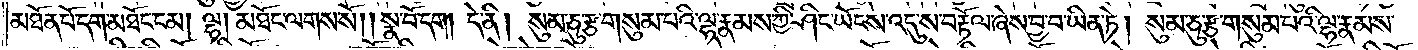མཐོན་པོ་དག་མཐོང་ངམ། ལྷ། མཐོང་ལགས་སོ། །སྣ་བོ་དག །དེ་ནི། སུམ་ཅུ་རྩ་གསུམ་པའི་ལྷ་རྣམས་ཀྱི་ཤིང་ཡོངས་སུ་འདུ་ས་བརྟོལ་ཞེས་བྱ་བ་ཡིན་ཏེ། སུམ་ཅུ་རྩ་གསུམ་པའི་ལྷ་རྣམས་
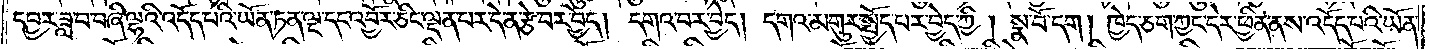དབྱར་ཟླ་བ་བཞི་ལྷའི་འདོད་པའི་ཡོན་ཏན་ལྔ་དང་འབྱོར་ཅིང་ལྡན་པར་དེ་ན་རྩེ་བར་བྱེད། དགའ་བར་བྱེད། དགའ་མགུར་སྤྱོད་པར་བྱེད་ཀྱི། སྣ་བོ་དག །ཁྱེད་ཅག་ཀྱང་དེར་ཕྱིན་ནས་འདོད་པའི་ཡོན་
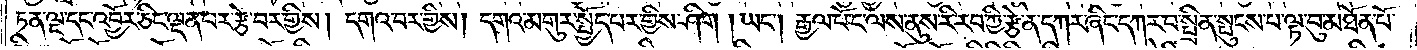ཏན་ལྔ་དང་འབྱོར་ཅིང་ལྡན་པར་རྩེ་བར་གྱིས། དགའ་བར་གྱིས། དགའ་མགུར་སྤྱོད་པར་གྱིས་ཤིག །ཡང༌། རྒྱལ་པོ་ང་ལས་ནུས་རི་རབ་ཀྱི་རྩེ་ན་དཀར་ཞིང་དཀར་བ་སྤྲིན་སྤུངས་པ་ལྟ་བུ་མཐོན་པོ་
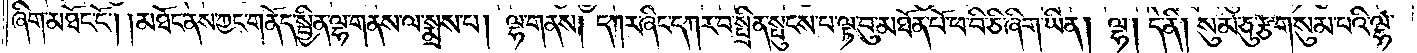ཞིག་མཐོང་ངོ༌། །མཐོང་ནས་ཀྱང་གནོད་སྦྱིན་ལྷ་གནས་ལ་སྨྲས་པ། ལྷ་གནས། དཀར་ཞིང་དཀར་བ་སྤྲིན་སྤུངས་པ་ལྟ་བུ་མཐོན་པོ་ཕ་བི་ཅི་ཞིག་ཡིན། ལྷ། དེ་ནི། སུམ་ཅུ་རྩ་གསུམ་པའི་ལྷ་
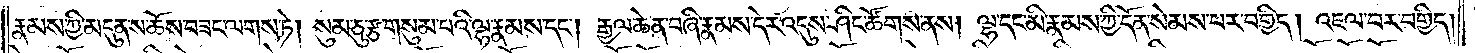རྣམས་ཀྱི་མདུན་ས་ཆོས་བཟང་ལགས་ཏེ། སུམ་ཅུ་རྩ་གསུམ་པའི་ལྷ་རྣམས་དང༌། རྒྱལ་ཆེན་བཞི་རྣམས་དེར་འདུས་ཤིང་ཚོགས་ནས། ལྷ་དང་མི་རྣམས་ཀྱི་དོན་སེམས་པར་བགྱིད། འཇལ་བར་བགྱིད།
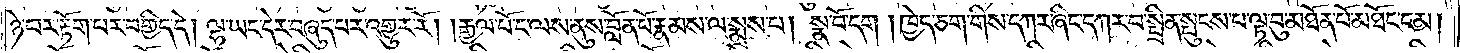ཉེ་བར་རྟོག་པར་བགྱིད་དེ། ལྷ་ཡང་དེར་བཞུད་པར་འགྱུར་རོ། །རྒྱལ་པོ་ང་ལས་ནུས་བློན་པོ་རྣམས་ལ་སྨྲས་པ། སྣ་བོ་དག །ཁྱེད་ཅག་གིས་དཀར་ཞིང་དཀར་པ་སྤྲིན་སྤུངས་པ་ལྟ་བུ་མཐོན་པོ་མཐོང་ངམ།
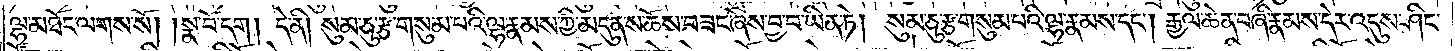ལྷ་མཐོང་ལགས་སོ། །སྣ་བོ་དག །དེ་ནི། སུམ་ཅུ་རྩ་གསུམ་པའི་ལྷ་རྣམས་ཀྱི་མདུན་ས་ཆོས་བཟང་ཞེས་བྱ་བ་ཡིན་ཏེ། སུམ་ཅུ་རྩ་གསུམ་པའི་ལྷ་རྣམས་དང༌། རྒྱལ་ཆེན་བཞི་རྣམས་དེར་འདུས་ཤིང་
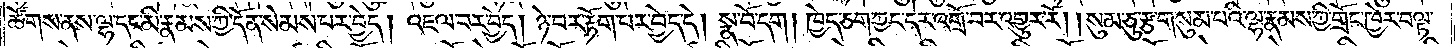ཚོགས་ནས་ལྷ་དང་མི་རྣམས་ཀྱི་དོན་སེམས་པར་བྱེད། འཇལ་བར་བྱེད། ཉེ་བར་རྟོག་པར་བྱེད་དེ། སྣ་བོ་དག །ཁྱེད་ཅག་ཀྱང་དེར་འགྲོ་བར་འགྱུར་རོ། །སུམ་ཅུ་རྩ་གསུམ་པའི་ལྷ་རྣམས་ཀྱི་གྲོང་ཁྱེར་བལྟ་
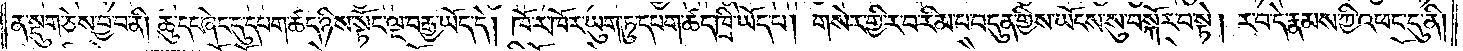ན་སྡུག་ཅེས་བྱ་བ་ནི། ཆུ་དང་ཞེང་དུ་དཔག་ཚད་ཉིས་སྟོང་ལྔ་བརྒྱ་ཡོད་དེ། ཁོ་ར་ཁོར་ཡུག་ཏུ་དཔག་ཚད་ཁྲི་ཡོད་པ། གསེར་གྱི་ར་བ་རིམ་པ་བདུན་གྱིས་ཡོངས་སུ་བསྐོར་བ་སྟེ། ར་བདེ་དེ་རྣམས་ཀྱི་འཕང་དུ་ནི།
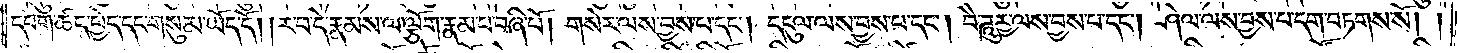དཔག་ཚད་ཕྱེད་དང་གསུམ་ཡོད་དོ། །ར་བདེ་རྣམས་ལ་ལྕོག་རྣམ་པ་བཞི་པོ། གསེར་ལས་བྱས་པ་དང༌། དངུལ་ལས་བྱས་པ་དང༌། བཻཌཱུརྱ་ལས་བྱས་པ་དང༌། ཤེལ་ལས་བྱས་པ་དག་བཏགས་སོ། །
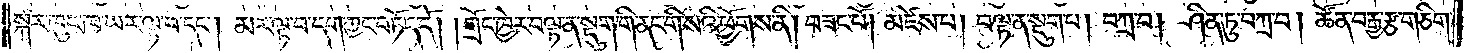སྐར་ཁུང་ཁ་ཡར་ལྟ་བ་དང༌། མར་ལྟ་བ་དག་ཀྱང་བཏོད་དོ། །གྲོང་ཁྱེར་བལྟ་ན་སྡུག་གི་ནང་གི་སའི་ཕྱོགས་ནི། བཟང་པོ། མཛེས་པ། བལྟ་ན་སྡུག་པ། བཀྲ་བ། ཤིན་ཏུ་བཀྲ་བ། ཚོན་བརྒྱ་རྩ་གཅིག་
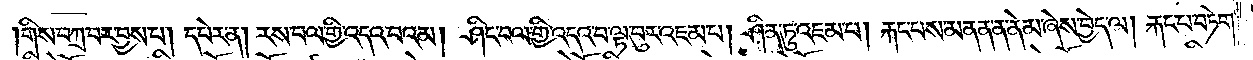གིས་བཀྲ་བར་བྱས་པ། དཔེར་ན། རས་བལ་གྱི་འདའ་བའམ། ཤིང་བལ་གྱི་འདའ་བ་ལྟ་བུར་འཇམ་པ། ཤིན་ཏུ་འཇམ་པ། རྐང་པས་མནན་ན་ནེ་མ་ཞེས་བྱེད་ལ། རྐང་པ་བཏེག་
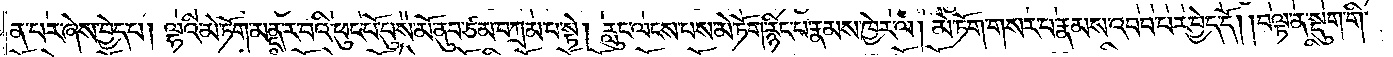ན་པར་ཞེས་བྱེད་པ། ལྷའི་མེ་ཏོག་མནྡཱ་ར་བའི་ཕུང་པོ་པུས་མོ་ནུབ་ཙམ་བཀྲམ་པ་སྟེ། རླུང་ལངས་པས་མེ་ཏོག་རྙིང་པ་རྣམས་ཁྱེར་ལ། མེ་ཏོག་གསར་པ་རྣམས་འབབ་པར་བྱེད་དོ། །བལྟ་ན་སྡུག་གི་
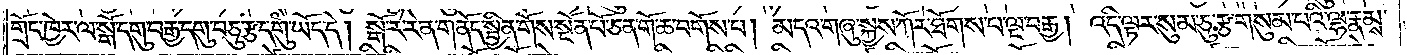གྲོང་ཁྱེར་ལ་སྒོ་དགུ་བརྒྱ་དགུ་བཅུ་རྩ་དགུ་ཡོད་དེ། སྒོ་རེ་རེ་ན་གནོད་སྦྱིན་གོས་སྔོན་པོ་ཅན་གོ་ཆ་བགོས་པ། མདའ་གཞུ་སྐྱས་ཀོར་ཐོགས་པ་ལྔ་བརྒྱ། འདི་ལྟར་སུམ་ཅུ་རྩ་གསུམ་པའི་ལྷ་རྣམས་
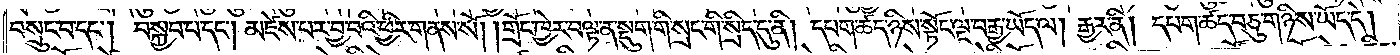བསྲུང་བ་དང༌། བསྐྱབ་པ་དང༌། མཛེས་པར་བྱ་བའི་ཕྱིར་གནས་སོ། །གྲོང་ཁྱེར་བལྟ་ན་སྡུག་གི་སྲང་གི་སྲིད་དུ་ནི། དཔག་ཚད་ཉིས་སྟོང་ལྔ་བརྒྱ་ཡོད་ལ། རྒྱར་ནི། དཔག་ཚད་བཅུ་གཉིས་ཡོད་དེ།
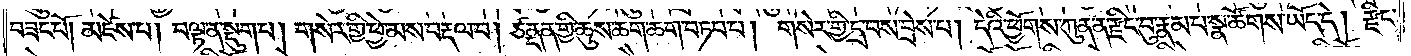བཟང་པོ། མཛེས་པ། བལྟ་ན་སྡུག་པ། གསེར་གྱི་ཕྱེ་མས་བརྡལ་བ། ཙནྡན་གྱི་ཆུས་ཆག་ཆག་བཏབ་པ། གསེར་གྱི་དྲ་བས་བྲེས་པ། དེའི་ཕྱོགས་ཀུན་ན་རྫིང་བུ་རྣམ་པ་སྣ་ཚོགས་ཡོད་དེ། རྫིང་
